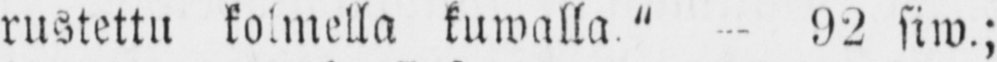rustettu kolmella kuwalla " — 92 siw.;
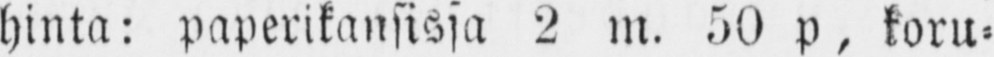hinta: paperikansissa 2 m. 50 p, koru-
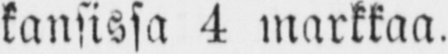kansissa 4 markkaa.
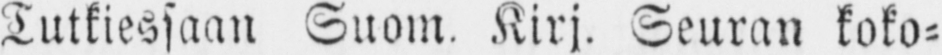Tutkiessaan Suom. Kirj. Seuran koko-
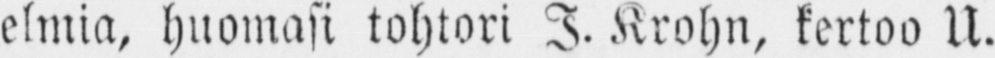elmia, huomasi tohtori I. Krohn, kertoo U.
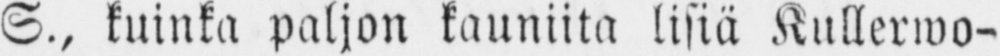S., kuinka paljon kauniita lisiä Kullerwo-
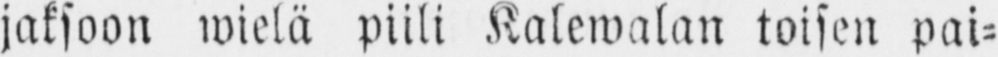jaksoon wielä piili Kalewalan toisen pai-
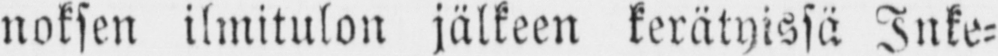noksen ilmitulon jälkeen kerätyissä Inke-
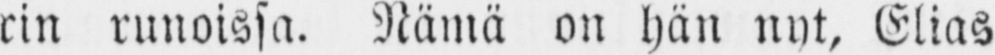rin runoissa. Nämä on hän nyt, Elias
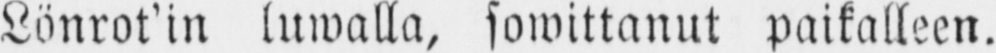Lönrot'in luwalla, sowittanut paikalleen.
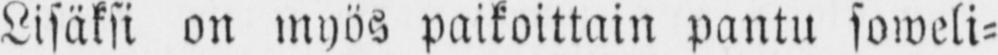Lisäksi on myös paikoittain pantu soweli-
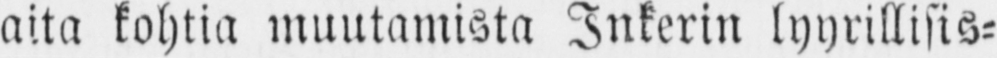aita kohtia muutamista Inkerin lyyrillisis-
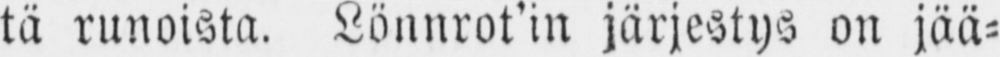tä runoista. Lönnrot'in järjestys on jää-
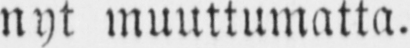nyt muuttumatta.
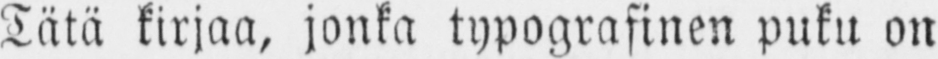Tätä kirjaa, jonka typograsinen puku on
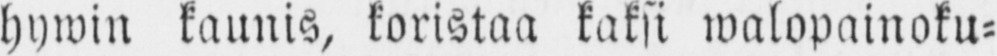hywin kaunis, koristaa kaksi walopainoku-
